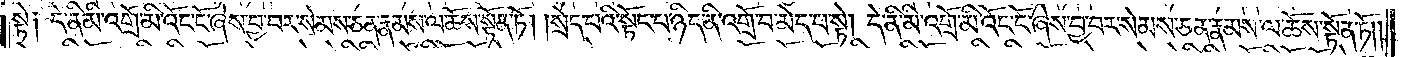སྟེ༑ དེ་ནི་མི་འགྲོ་མི་འོང་ངོ་ཞེས་བྱ་བར་སེམས་ཅན་རྣམས་ལ་ཆོས་སྟོན་ཏོ། །སྲེད་པའི་སྟོང་པ་ཉིད་ནི་འགྲོ་བ་མེད་པ་སྟེ། དེ་ནི་མི་འགྲོ་མི་འོང་ངོ་ཞེས་བྱ་བར་སེམས་ཅན་རྣམས་ལ་ཆོས་སྟོན་ཏོ༎
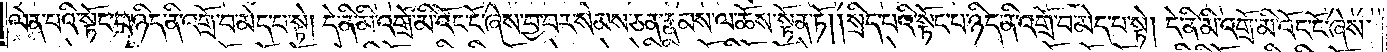ལེན་པའི་སྟོང་པ་ཉིད་ནི་འགྲོ་བ་མེད་པ་སྟེ། དེ་ནི་མི་འགྲོ་མི་འོང་ངོ་ཞེས་བྱ་བར་སེམས་ཅན་རྣམས་ལ་ཆོས་སྟོན་ཏོ། །སྲིད་པའི་སྟོང་པ་ཉིད་ནི་འགྲོ་བ་མེད་པ་སྟེ། དེ་ནི་མི་འགྲོ་མི་འོང་ངོ་ཞེས་
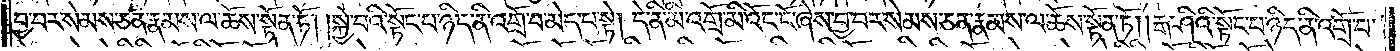བྱ་བར་སེམས་ཅན་རྣམས་ལ་ཆོས་སྟོན་ཏོ། །སྐྱེ་བའི་སྟོང་པ་ཉིད་ནི་འགྲོ་བ་མེད་པ་སྟེ། དེ་ནི་མི་འགྲོ་མི་འོང་ངོ་ཞེས་བྱ་བར་སེམས་ཅན་རྣམས་ལ་ཆོས་སྟོན་ཏོ། །རྒ་ཤིའི་སྟོང་པ་ཉིད་ནི་འགྲོ་བ་
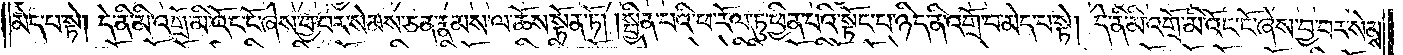མེད་པ་སྟེ། དེ་ནི་མི་འགྲོ་མི་འོང་ངོ་ཞེས་བྱ་བར་སེམས་ཅན་རྣམས་ལ་ཆོས་སྟོན་ཏོ། །སྦྱིན་པའི་ཕ་རོལ་ཏུ་ཕྱིན་པའི་སྟོང་པ་ཉིད་ནི་འགྲོ་བ་མེད་པ་སྟེ། དེ་ནི་མི་འགྲོ་མི་འོང་ངོ་ཞེས་བྱ་བར་སེམས་
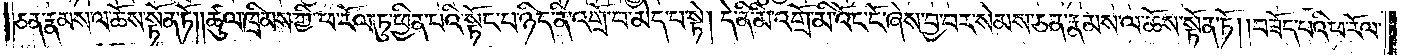ཅན་རྣམས་ལ་ཆོས་སྟོན་ཏོ། །ཚུལ་ཁྲིམས་ཀྱི་ཕ་རོལ་ཏུ་ཕྱིན་པའི་སྟོང་པ་ཉིད་ནི་འགྲོ་བ་མེད་པ་སྟེ། དེ་ནི་མི་འགྲོ་མི་འོང་ངོ་ཞེས་བྱ་བར་སེམས་ཅན་རྣམས་ལ་ཆོས་སྟོན་ཏོ། །བཟོད་པའི་ཕ་རོལ་
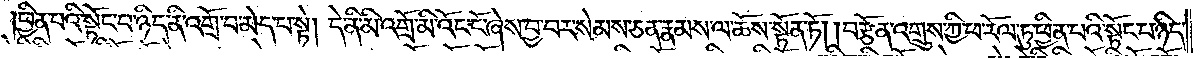ཕྱིན་པའི་སྟོང་པ་ཉིད་ནི་འགྲོ་བ་མེད་པ་སྟེ། དེ་ནི་མི་འགྲོ་མི་འོང་ངོ་ཞེས་བྱ་བར་སེམས་ཅན་རྣམས་ལ་ཆོས་སྟོན་ཏོ། །བརྩོན་འགྲུས་ཀྱི་ཕ་རོལ་ཏུ་ཕྱིན་པའི་སྟོང་པ་ཉིད་
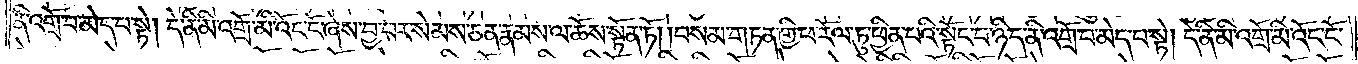ནི་འགྲོ་བ་མེད་པ་སྟེ། དེ་ནི་མི་འགྲོ་མི་འོང་ངོ་ཞེས་བྱ་བར་སེམས་ཅན་རྣམས་ལ་ཆོས་སྟོན་ཏོ། །བསམ་གཏན་གྱི་ཕ་རོལ་ཏུ་ཕྱིན་པའི་སྟོང་པ་ཉིད་ནི་འགྲོ་བ་མེད་པ་སྟེ། དེ་ནི་མི་འགྲོ་མི་འོང་ངོ་
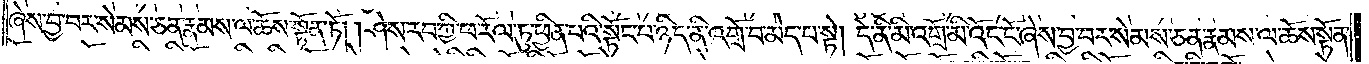ཞེས་བྱ་བར་སེམས་ཅན་རྣམས་ལ་ཆོས་སྟོན་ཏོ། །ཤེས་རབ་ཀྱི་ཕ་རོལ་ཏུ་ཕྱིན་པའི་སྟོང་པ་ཉིད་ནི་འགྲོ་བ་མེད་པ་སྟེ། དེ་ནི་མི་འགྲོ་མི་འོང་ངོ་ཞེས་བྱ་བར་སེམས་ཅན་རྣམས་ལ་ཆོས་སྟོན་
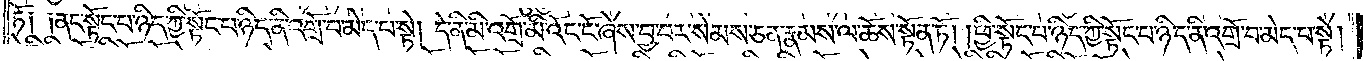ཏོ༑ ༑ནང་སྟོང་པ་ཉིད་ཀྱི་སྟོང་པ་ཉིད་ནི་འགྲོ་བ་མེད་པ་སྟེ། དེ་ནི་མི་འགྲོ་མི་འོང་ངོ་ཞེས་བྱ་བར་སེམས་ཅན་རྣམས་ལ་ཆོས་སྟོན་ཏོ། །ཕྱི་སྟོང་པ་ཉིད་ཀྱི་སྟོང་པ་ཉིད་ནི་འགྲོ་བ་མེད་པ་སྟེ།
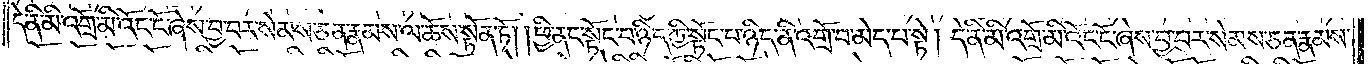དེ་ནི་མི་འགྲོ་མི་འོང་ངོ་ཞེས་བྱ་བར་སེམས་ཅན་རྣམས་ལ་ཆོས་སྟོན་ཏོ། །ཕྱི་ནང་སྟོང་པ་ཉིད་ཀྱི་སྟོང་པ་ཉིད་ནི་འགྲོ་བ་མེད་པ་སྟེ། དེ་ནི་མི་འགྲོ་མི་འོང་ངོ་ཞེས་བྱ་བར་སེམས་ཅན་རྣམས་
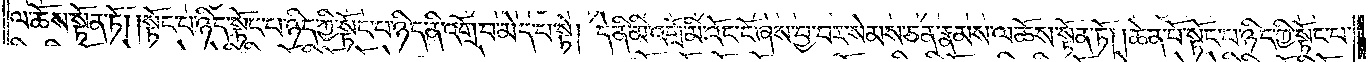ལ་ཆོས་སྟོན་ཏོ། །སྟོང་པ་ཉིད་སྟོང་པ་ཉིད་ཀྱི་སྟོང་པ་ཉིད་ནི་འགྲོ་བ་མེད་པ་སྟེ། དེ་ནི་མི་འགྲོ་མི་འོང་ངོ་ཞེས་བྱ་བར་སེམས་ཅན་རྣམས་ལ་ཆོས་སྟོན་ཏོ། །ཆེན་པོ་སྟོང་པ་ཉིད་ཀྱི་སྟོང་པ་
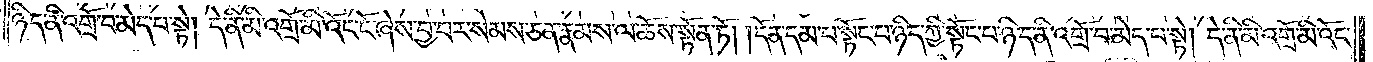ཉིད་ནི་འགྲོ་བ་མེད་པ་སྟེ། དེ་ནི་མི་འགྲོ་མི་འོང་ངོ་ཞེས་བྱ་བར་སེམས་ཅན་རྣམས་ལ་ཆོས་སྟོན་ཏོ། །དོན་དམ་པ་སྟོང་པ་ཉིད་ཀྱི་སྟོང་པ་ཉིད་ནི་འགྲོ་བ་མེད་པ་སྟེ། དེ་ནི་མི་འགྲོ་མི་འོང་
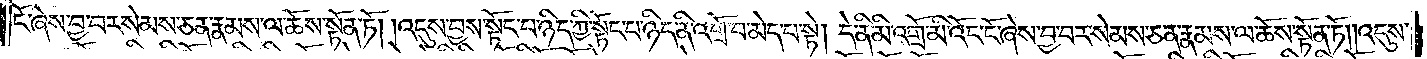ངོ་ཞེས་བྱ་བར་སེམས་ཅན་རྣམས་ལ་ཆོས་སྟོན་ཏོ། །འདུས་བྱས་སྟོང་པ་ཉིད་ཀྱི་སྟོང་པ་ཉིད་ནི་འགྲོ་བ་མེད་པ་སྟེ། དེ་ནི་མི་འགྲོ་མི་འོང་ངོ་ཞེས་བྱ་བར་སེམས་ཅན་རྣམས་ལ་ཆོས་སྟོན་ཏོ། །འདུས་
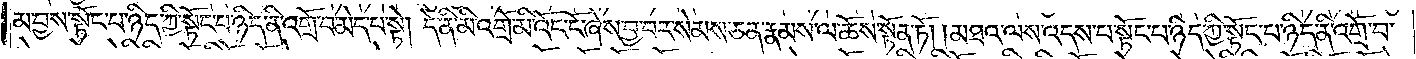མ་བྱས་སྟོང་པ་ཉིད་ཀྱི་སྟོང་པ་ཉིད་ནི་འགྲོ་བ་མེད་པ་སྟེ། དེ་ནི་མི་འགྲོ་མི་འོང་ངོ་ཞེས་བྱ་བར་སེམས་ཅན་རྣམས་ལ་ཆོས་སྟོན་ཏོ། །མཐའ་ལས་འདས་པ་སྟོང་པ་ཉིད་ཀྱི་སྟོང་པ་ཉིད་ནི་འགྲོ་བ་
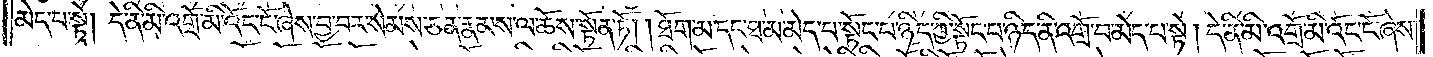མེད་པ་སྟེ། དེ་ནི་མི་འགྲོ་མི་འོང་ངོ་ཞེས་བྱ་བར་སེམས་ཅན་རྣམས་ལ་ཆོས་སྟོན་ཏོ། །ཐོག་མ་དང་ཐ་མ་མེད་པ་སྟོང་པ་ཉིད་ཀྱི་སྟོང་པ་ཉིད་ནི་འགྲོ་བ་མེད་པ་སྟེ། དེ་ནི་མི་འགྲོ་མི་འོང་ངོ་ཞེས་
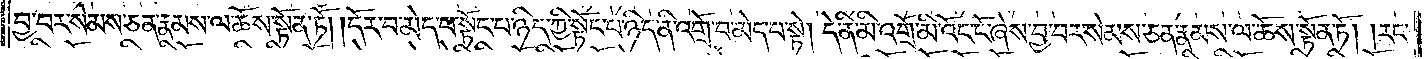བྱ་བར་སེམས་ཅན་རྣམས་ལ་ཆོས་སྟོན་ཏོ། དོར་བ་མེད་པ་སྟོང་པ་ཉིད་ཀྱི་སྟོང་པ་ཉིད་ནི་འགྲོ་བ་མེད་པ་སྟེ། དེ་ནི་མི་འགྲོ་མི་འོང་ངོ་ཞེས་བྱ་བར་སེམས་ཅན་རྣམས་ལ་ཆོས་སྟོན་ཏོ། །རང་
